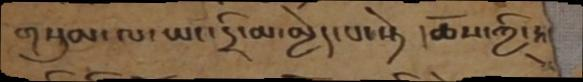གསུམ་ལ་ཡང་དྲི་མ་མྱེད་པ་སྟེ། ཆོས་ཀྱི་སྐུ
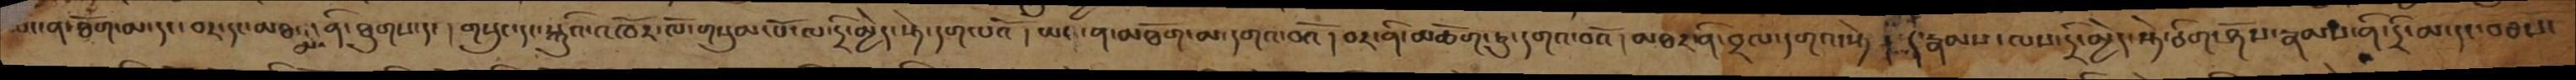ཡང་ན་ཐོག་མ་དང་བར་དང་མཐའ་མ་ནི་ཐུགས་དང། གསུང་དང་སྐུའི་འཁོར་ལོ་གསུམ་པོ་ལ་དྲི་མྱེད་སྟེ་དག་པའོ། ཡང་ན་མཐོག་མ་དགའ་བའོ། བར་ནི་མཆོག་ཏུ་དགའ་བའོ། མཐར་ནི་བྲལ་དགའ་སྟེ། །དེ་རྣམས་ལས་དྲི་མྱེད་སྟེ་ཅིག་ཤོས་རྣམས་ནི་དྲི་མ་དང་བཅས་
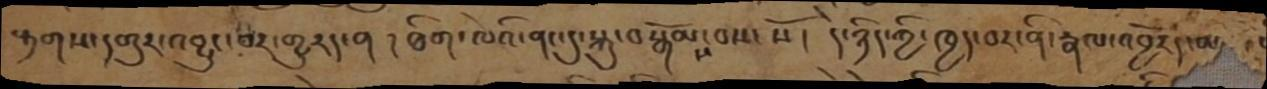རྟགས་དགུར་འབྱུང་བར་གྱུརད་ན། ཐིག་ལེའི་ནང་དུ་སྐུ་བསྒོམས་བས་སོ། དེ་ཉིད་ཀྱི་ཁྱད་བར་ནི་རྣལ་འབྱོརད་མ་
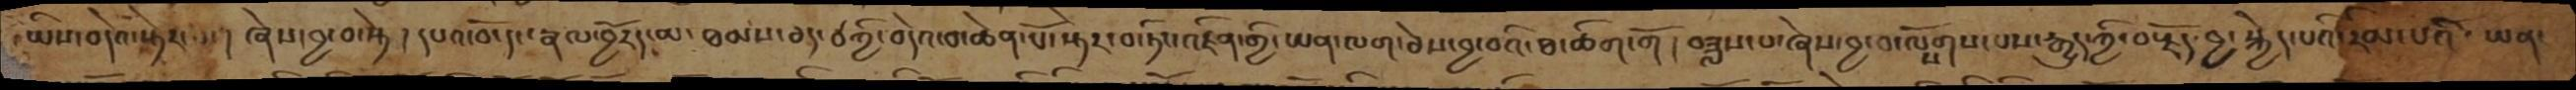ཡིས་བདེའ་སྟེར་མ། ཞེས་བྱ་བ་སྟེ། དཔའ་བོ་དང་རྣལ་འབྱོརད་མ་ཐམས་ཅད་ཙཀྱི་བདེའ་བ་ཆེན་པོ་སྟེར་བ་ཏིང་འཛིན་གྱི་ཡན་ལག་ཅེས་བྱ་བའི་ཐ་ཚིག་གོ། བཟླས་པ་ཞེས་བྱ་བ་ལསོགས་པས་རྒྱུད་ཀྱི་བརྗོད་བྱ་སྐྱེད་པའི་རིམ་པའི་ཡན་
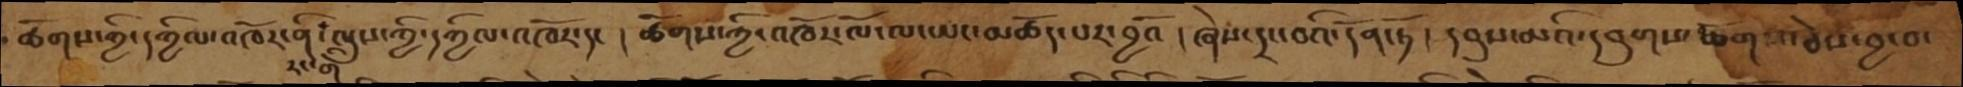ཚོགས་ཀྱི་དཀྱིལ་འཁོར་ནི་རང་གི་ལུས་ཀྱི་དཀྱིལ་འཁོར་དང།  ཚོགས་ཀྱི་འཁོར་ལོ་ལ་ཡང་མཆོད་པར་བྱའོ། ཞེས་དྲང་བའི་དོན་ཏོ། དབུས་མའི་དབུགས་རྩོགས་ཅེས་བྱ་བ་
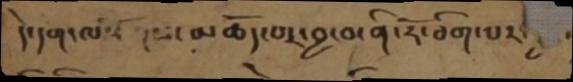དེ་དག་ལསོགས་མཆོད་པར་བྱ་བ་ནི་རོ་ཅིག་པར་
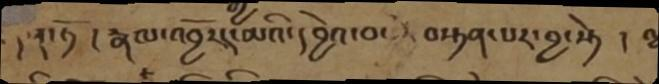དོན་ཏོ། རྣལ་འབྱོརད་མའི་དབྱེའ་བ་ བསྟན་པར་བྱ་སྟེ། ལྷ
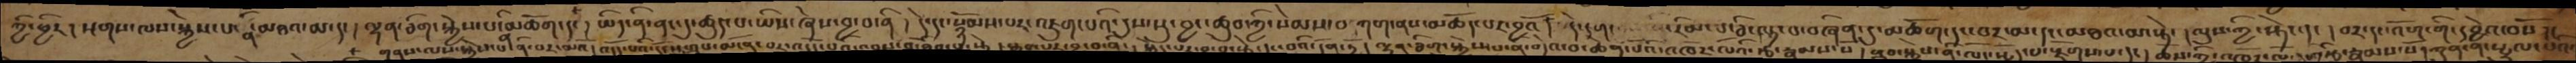ཀྱི་ཕྱིར། སྔགས་ལས་སྐྱེས་པ་ནི་མཐའ་མ་དང། ལྷན་ཅིག་སྐྱེས་པ་ནི་མཆོག་དང། ཡིད་ནི་ནང་དུ་ཚུད་པ་ཡིས་ཞེས་བྱ་བ་ནི། དེ་དང་སྙོམས་པར་འཇུག་པའི་དུས་སུ་བྱང་ཆུབ་ཀྱི་སེམས་བཀག་ནས་མཆོད་པར་བྱའོ། དེ་དག་ རིམ་པ་ཅི་ལྟ་བ་བཞིན་དུ་མཆོག་དང་བར་མ་དང་མཐའ་མ་སྟེ། ལུས་ཀྱི་སྟེང་དང། བར་དང་འོག་གི་དབྱེའ་བསོ།
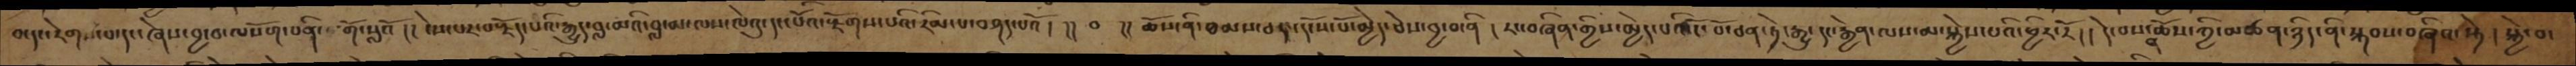བ་དང་རེགས་པ་དང་ཞེས་བྱ་བ་ལསོག་པ་ནི་གོ་སླའོ། །ངེས་པར་བརྗོད་པའི་རྒྱུད་བླ་མའི་བླ་མ་ལས་ལེའུ་དང་པོའི་རྫོགས་པའི་རིམ་པ་བཤད་པའོ། །། ༠ །། ཆོས་ནི་ཐམས་ཅད་དངོས་པོ་མྱེད་ཅེས་བྱ་བ་ནི། རང་བཞིན་གྱིས་མྱེད་པའི་ངོ་བོ་ཅན་ཏེ་རྒྱུ་དང་རྐྱེན་ལས་མ་སྐྱེས་པའི་ཕྱིར་རོ།། དེ་བས་ན་ཆོས་ཀྱི་མཚན་ཉིད་ནི་སྐབས་བཞིས་སྟེ། སྐྱེ་བ་
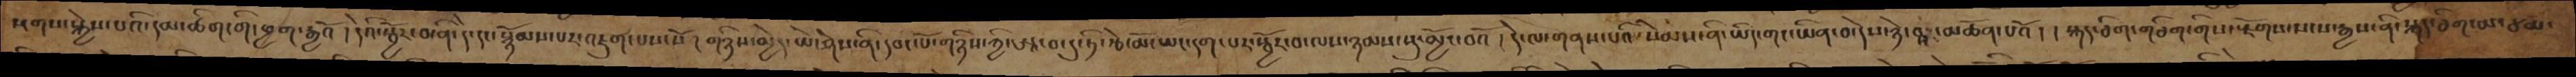སྔགས་སྐྱེས་པའི་དམ་ཚིག་གི་ཕྱག་རྒྱའོ། དེའི་སྦྱོར་བ་ནི་དེ་དང་སྙོམས་པར་འཇུག་པས་སོ། གཉིས་མྱེད་ཡེ་ཤེས་ནི་དབང་པོ་གཉིས་ཀྱི་ཨཱ་བ་དུ་ཏི་རྩེ་མོ་ཡང་དག་པར་སྦྱོར་བ་ལས་ཉམས་སུ་མྱོང་བའོ། དེ་ལ་གནས་པའི་སེམས་ནི་ཡིད་གང་ཡིན་བ་དེས་ཉེ་བར་མཚོན་པའོ། །སྐད་ཅིག་གཅིག་གིས་རྫོགས་སངས་རྒྱས་ནི་སྐད་ཅིག་མ་ཙམ་
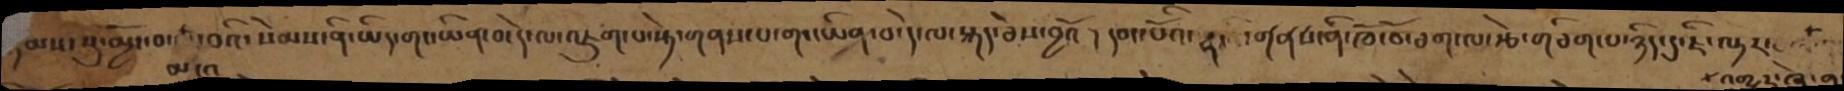ཉམས་སུ་མྱོང་བ་མངའ་བའི་སེམས་ནི་ཡིད་གང་ཡིན་བ་དེ་ལ་འཇུག་པ་སྟེ་གནས་པ་གང་ཡིན་བ་དེ་ལ་སྐད་ཅེས་བྱའོ། དབང་པོའི་ན་གནས་ནི་ཁོ་བོ་ཅག་ལ་རྩེ་གཅིག་པ་ཉིད་དུ་ཇི་ལྟར་འགྱུར་ཞེ་ན་
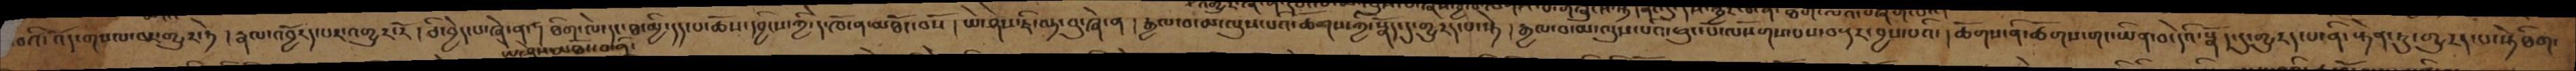བའི་འོད་གསལ་ལ་གྱུར་ཏེ། རྣལ་འབྱོརད་པར་འགྱུར་རོ། ཅི་བྱེད་པ་ཞེ་ན། ཐིག་ལེ་དང་ཐ་མྱི་དད་པ་ཆོས་དབྱིངས་ཀྱི་དེ་ཁོ་ན་མཐོང་བསོ། ཡེ་ཤེས་ཇི་ལྟ་བུ་ཞེ་ན། རྒྱལ་བ་མ་ལུས་པའི་ཚོགས་ཀྱི་སྣོད་དུ་གྱུརད་པ་སྟེ། རྒྱལ་བ་མ་ལུས་པའི་ཕུང་པོ་ལསོགས་པས་བརྡར་བྱས་པའི་། ཚོགས་ནི་ཚོགས་གང་ཡིན་བ་དེའི་སྣོད་དུ་གྱུརད་པ་ནི་རྟེན་ཏུ་གྱུརད་པ་སྟེ་ཐིག་
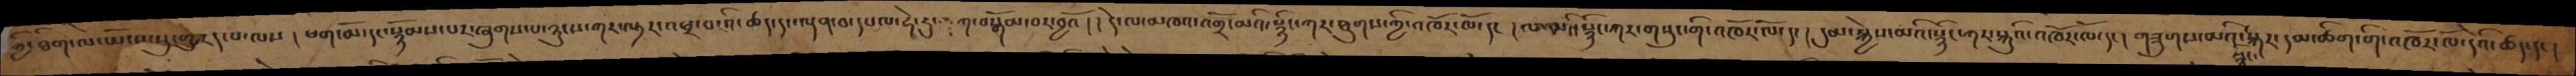གྱི་ཐིག་ལེ་ཡོངས་སུ་གྱུརད་པ་ལས། ཕག་མོ་དང་སྙོམས་པར་ཞུགས་པ་ཉུངས་གར་ལྟར་འཕྲ་བ་འི་ཚད་དང་ལྡན་བ་དཔལ་ཧེ་རུ་ཀ་བསྒོམ་བར་བྱའོ །། དེ་ལ་མཁའ་འགྲོ་མའི་སྙིང་ཀར་ཐུགས་ཀྱི་འཁོར་ལོ་དང ། ལ་མའི་སྙིང་ཀར་གསུང་གི་འཁོར་ལོ་དང། དུམ་སྐྱེས་མའི་སྙིང་ཀར་སྐུའི་འཁོར་ལོ་དང ། གཟུགས་མའི་སྙིང་སྐར་དམ་ཚིག་གི་འཁོར་ལོ་དེའི་ཚད་དང །
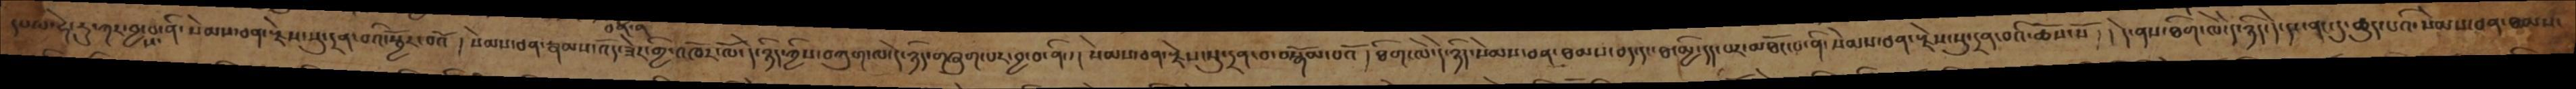དཔལ་ཧེ་རུ་ཀར་བྱ་བ་ནི་སེམས་ཅན་རྗེས་སུ་དྲན་པའི་སྦྱོར་བའོ། སེམས་ཅན་རྣམས་འོད་ཟེར་གྱི་འཁོར་ལོ་དེ་ཉིད་ཀྱིས་བཀུག་ལ་དེ་ཉིད་གཞུག་པར་བྱ་བ་ནི། སེམས་ཅན་རྗེས་སུ་དྲན་བ་བསྒོམ་པའོ། ཐིག་ལེ་དེ་ཉིད་སེམས་ཅན་ཐམས་ཅད་དང་ཐ་མྱི་དད་པར་མཐོང་བ་ནི་སེམས་ཅན་རྗེས་སུ་དྲན་བའི་ཆོས་སོ། དེ་ནས་ཐིག་ལེ་དེ་ཉིད་དེ་དང་ནང་དུ་ཚུད་པའི་སེམས་ཅན་ཐམས་
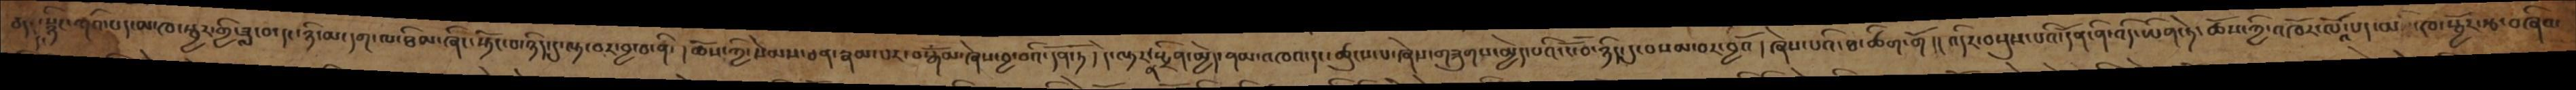ཅད་དང་སྙིང་ཀའི་པད་མ་ཁ་སྦྱར་གྱི་ཟླ་བ་དང་ཉི་མ་དག་ལ་ཐིམ་ཞིང་སྟོང་བ་ཉིད་དུ་ལྟ་བར་བྱ་བ་ནི་། ཆོས་ཀྱི་སེམས་ཅན་རྣམ་པར་བསྒོམ་ཞེས་བྱ་བའི་དོན་ཏོ། དེ་ལྟར་ན་སྤྲིན་མྱེད་ནམ་མཁའ་དང་ཚུངས་པ་ཞེས་གཟུགས་མྱེད་པའི་ངོ་བོ་ཉིད་དུ་བསམ་བར་བྱའོ། ཞེས་པའི་ཐ་ཚིག་གོ། འདིར་བསྡུས་པའི་དོན་ནི་འདི་ཡིན་ཏེ།ཆོས་ཀྱི་འཁོར་ལོའི་པད་མ་ཁ་སྦྱོར་རྩ་བཞིའ་
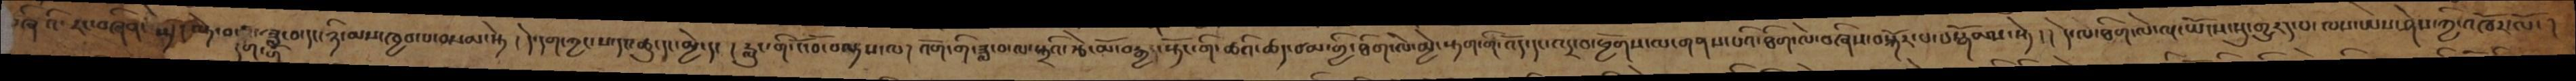བཞིའི་རང་བཞིན་སྟེ། ལྟེ་བ་དག་པའི་ཟླ་བ་དང་ཉི་མས་ཁྱབ་པ་བསམ་སྟེ། དེ་དག་ཀྱང་ས་དང་ཆུ་དང་མྱེ་དང། རླུང་གི་ངོ་བོ་བལྟས་ལ། འོག་གི་ཟླ་བ་ལ་སྐྲའི་རྩེ་མོ་བརྒྱད་སྟོང་གི་ཆའི་ཚད་ཙམ་གྱི་ཐིག་ལེ་མྱེ་སྟག་གི་འོད་དང་འདྲ་བ་ཕྱོགས་ལ་གནས་པའི་ཐིག་ལེ་བཞིས་བསྐོར་པ་བསྒོམས་སྟེ། དེ་ལ་ཐིག་ལེ་ལྔ་ཡོངས་སུ་གྱུརད་པ་ལས་ཡེས་ཤེས་ཀྱི་འཁོར་ལོ་།
